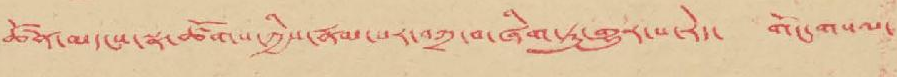ཚོན་མདངས་སྣ་ཚོགས་ཀྱིས་རྣམ་པར་བཀྲ་བ་ཞིག་ཏུ་གྱུར་པ་རེད་ གོང་གསལ་
